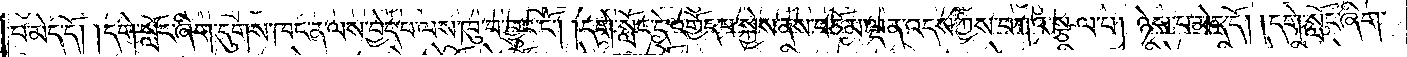པ་མེད་དོ། །དགེ་སློང་ཞིག་དུགས་ཁང་ན་ལས་བྱེད་པ་ལས་ཁུ་བ་བྱུང་ངོ༌། །དགེ་སློང་དེ་འགྱོད་པ་སྐྱེས་ནས་བཅོམ་ལྡན་འདས་ཀྱིས་བཀའ་སྩལ་པ། ཉེས་པ་མེད་དོ། །དགེ་སློང་ཞིག་
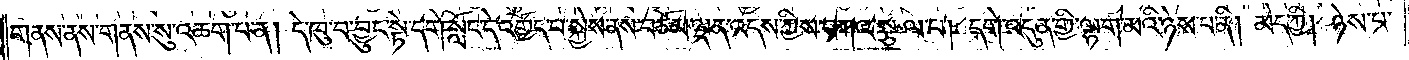གནས་ནས་གནས་སུ་འཆག་པ་ན། དེ་ཁུ་བ་བྱུང་སྟེ་དགེ་སློང་དེ་འགྱོད་པ་སྐྱེས་ནས་བཅོམ་ལྡན་འདས་ཀྱིས་བཀའ་སྩལ་པ། དགེ་འདུན་གྱི་ལྷག་མའི་ཉེས་པ་ནི། མེད་ཀྱི། ཉེས་པ་
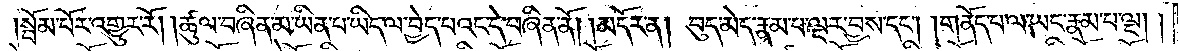སྦོམ་པོར་འགྱུར་རོ། །ཚུལ་བཞིན་མ་ཡིན་པ་ཡིད་ལ་བྱེད་པའང་དེ་བཞིན་ནོ། །མདོར་ན། བུད་མེད་རྣམ་པ་ལྔར་བྱས་དང༌། །གནོད་པ་ལ་ཡང་རྣམ་པ་ལྔ། །
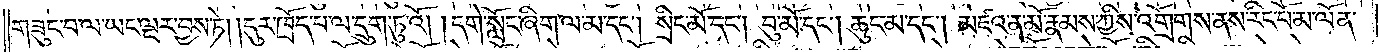གཟུགས་བ་ལ་ཡང་ལྔར་བྱས་ཏེ། །དུར་ཁྲོད་པ་ལ་དྲུག་ཏུ་འོ། །དགེ་སློང་ཞིག་ལ་མ་དང༌། སྲིང་མོ་དང༌། བུ་མོ་དང༌། ཆུང་མ་དང༌། མཛའ་ན་མོ་རྣམས་ཀྱིས་འགྲོགས་ནས་རིང་པོ་མ་ལོན་
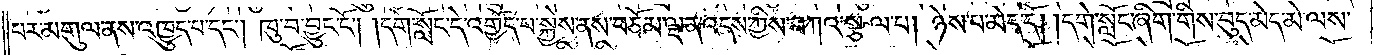པར་མགུལ་ནས་འཁྱུད་པ་དང༌། ཁུ་བ་བྱུང་ངོ༌། །དགེ་སློང་དེ་འགྱོད་པ་སྐྱེས་ནས་བཅོམ་ལྡན་འདས་ཀྱིས་བཀའ་སྩལ་པ། ཉེས་པ་མེད་དོ། །དགེ་སློང་ཞིག་གིས་བུད་མེད་མེ་ལས་
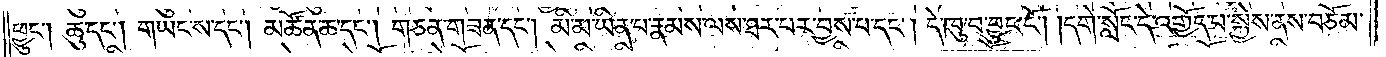ཕྱུང༌། ཆུ་དང༌། གཡང་ས་དང༌། མཚོན་ཆ་དང༌། གཅན་གཟན་དང༌། མི་མ་ཡིན་པ་རྣམས་ལས་ཐར་པར་བྱས་པ་དང༌། དེ་ཁུ་བ་བྱུང་ངོ༌། །དགེ་སློང་དེ་འགྱོད་པ་སྐྱེས་ནས་བཅོམ་
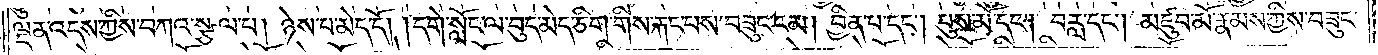ལྡན་འདས་ཀྱིས་བཀའ་སྩལ་པ། ཉེས་པ་མེད་དོ། །དགེ་སློང་ལ་བུད་མེད་ཅིག་གིས་རྐང་པས་བཟུང་ངམ། བྱིན་པ་དང༌། པུས་མོ་དང༌། བརླ་དང༌། མཛུབ་མོ་རྣམས་ཀྱིས་བཟུང་
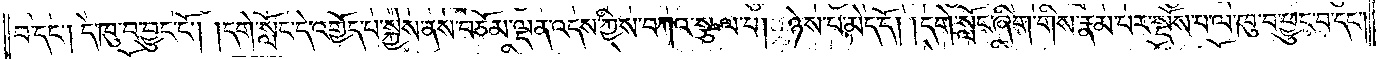བ་དང༌། དེ་ཁུ་བ་བྱུང་ངོ༌། །དགེ་སློང་དེ་འགྱོད་པ་སྐྱེས་ནས་བཅོམ་ལྡན་འདས་ཀྱིས་བཀའ་སྩལ་པ། ཉེས་པ་མེད་དོ། །དགེ་སློང་ཞིག་གིས་རྣམ་པར་སྡོས་པ་ལ་ཁུ་བ་ཕྱུང་བ་དང༌།
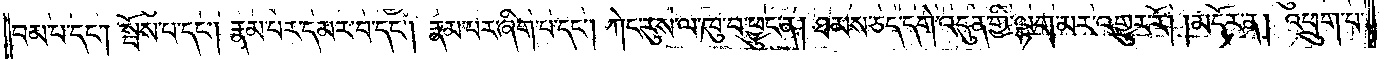བམ་པ་དང༌། སྤོས་པ་དང༌། རྣམ་པར་དམར་བ་དང༌། རྣམ་པར་ཞིག་པ་དང༌། ཀེང་རུས་ལ་ཁུ་བ་ཕྱུང་ན། ཐམས་ཅད་དགེ་འདུན་གྱི་ལྷག་མར་འགྱུར་རོ། །མདོར་ན། འཕྲུག་པ་
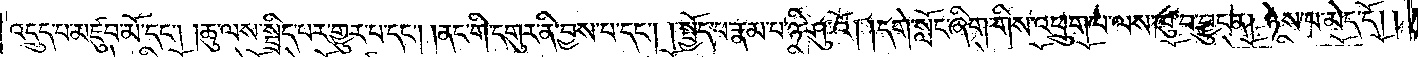འདྲུད་པ་མཛུབ་མོ་དང༌། །ཆུ་ལས་སྦྲིད་པར་གྱུར་པ་དང༌། །ནང་གི་དགུར་ནི་བྱས་པ་དང༌། །སྤྱོད་པ་རྣམ་པ་ཉི་ཤུའོ། །དགེ་སློང་ཞིག་གིས་འཕྲུག་པ་ལས་ཁུ་བ་བྱུང་ན། ཉེས་པ་མེད་དོ། །
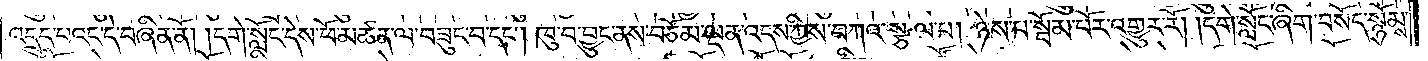འདྲུད་པའང་དེ་བཞིན་ནོ། །དགེ་སློང་དེས་ཕོ་མཚན་ལ་བཟུང་བ་དང༌། ཁུ་བ་བྱུང་ནས་བཅོམ་ལྡན་འདས་ཀྱིས་བཀའ་སྩལ་པ། ཉེས་པ་སྦོམ་པོར་འགྱུར་རོ། །དགེ་སློང་ཞིག་བསོད་སྙོམས་
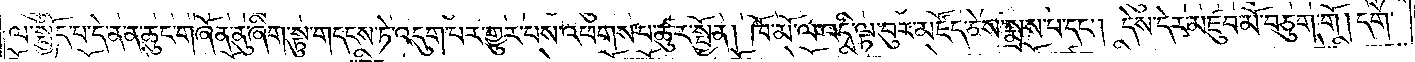ལ་སྤྱོད་པ་དེ་ན་ན་ཆུང་གཞོན་ནུ་ཞིག་སྟུ་གདངས་ཏེ་འདུག་པར་གྱུར་པས་འཕགས་པ་ཚུར་སྤྱོན། ཁོ་མོ་ལ་འདི་ལྟ་བུར་མཛོད་ཅེས་སྨྲས་པ་དང༌། དེས་དེར་མཛུབ་མོ་བཅུག་གོ །དགེ་
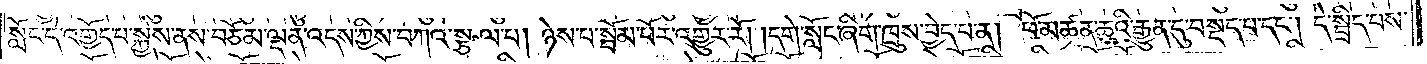སློང་དགེ་འགྱོད་པ་སྐྱེས་ནས་བཅོམ་ལྡན་འདས་ཀྱིས་བཀའ་སྩལ་པ། ཉེས་པ་སྦོམ་པོར་འགྱུར་རོ། །དགེ་སློང་ཞིག་ཁྲུས་བྱེད་པ་ན། ཕོ་མཚན་ཆུའི་རྒྱུན་དུ་བསྡད་པ་དང༌། དེ་སྦྲིད་པས་
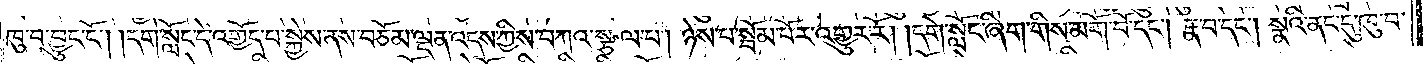ཁུ་བ་བྱུང་ངོ༌། །དགེ་སློང་དེ་འགྱོད་པ་སྐྱེས་ནས་བཅོམ་ལྡན་འདས་ཀྱིས་བཀའ་སྩལ་པ། ཉེས་པ་སྦོམ་པོར་འགྱུར་རོ། །དགེ་སློང་ཞིག་གིས་མགོ་བོ་དང༌། རྣ་བ་དང༌། སྣའི་ནང་དུ་ཁུ་བ་
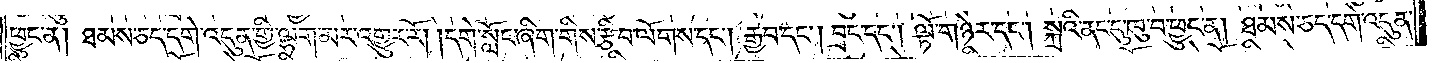ཕྱུང་ན། ཐམས་ཅད་དགེ་འདུན་གྱི་ལྷག་མར་འགྱུར་རོ། །དགེ་སློང་ཞིག་གིས་རྩིབ་ལོགས་དང༌། རྒྱབ་དང༌། བྲང་དང༌། ལྟོ་གཉེར་དང༌། སྐྲའི་ནང་དུ་ཁུ་བ་ཕྱུང་ན། ཐམས་ཅད་དགེ་འདུན་
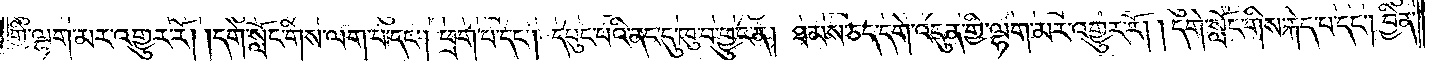གྱི་ལྷག་མར་འགྱུར་རོ། །དགེ་སློང་གིས་ལག་པ་དང༌། ཕྲག་པ་དང༌། དཔུང་པའི་ནང་དུ་ཁུ་བ་ཕྱུང་ན། ཐམས་ཅད་དགེ་འདུན་གྱི་ལྷག་པར་འགྱུར་རོ། །དགེ་སློང་གིས་རྐེད་པ་དང༌། བྱིན་
